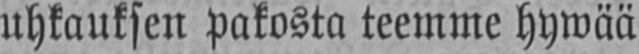uhkauksen pakosta teemme hywää
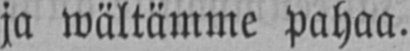ja wältämme pahaa.
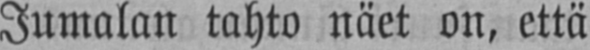Jumalan tahto näet on, että
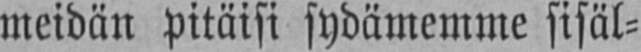meidän pitäisi sydämemme sisäl-
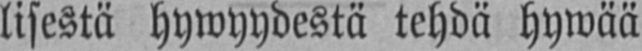lisestä hywyydestä tehdä hywää
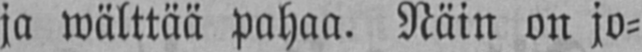ja wälttää pahaa. Näin on jo-
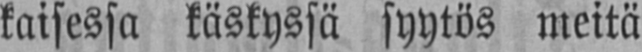kaisessa käskyssä syytös meitä
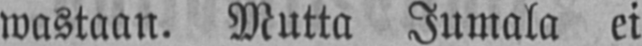wastaan. Mutta Jumala ei
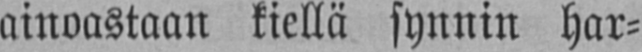ainoastaan kiellä synnin har-
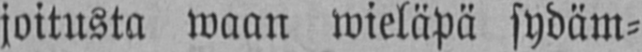joitusta waan wieläpä sydäm-
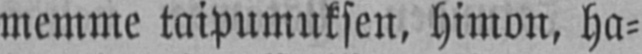memme taipumuksen, himon, ha-
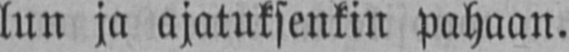lun ja ajatuksenkin pahaan.
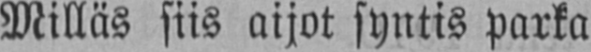Milläs siis aijot syntis parka
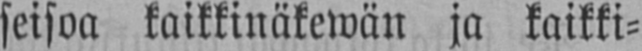seisoa kaikkinäkewän ja kaikki-
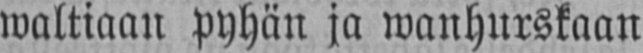waltiaan pyhän ja wanhurskaan
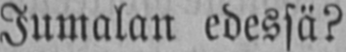Jumalan edessä?
